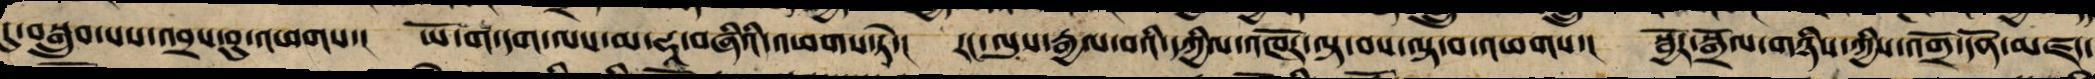དུ་བསྒྲུབ་པས་འབྲས་བུ་འཕགས་། ཡོ་ག་དག་ལས་མ་ཧཱ་བཞིའི་འཕགས་ཏེ་། རང་ལུས་རྒྱལ་བའི་དཀྱིལ་འཁོར་ལྟ་བས་ལྟ་བ་འཕགས་། སྦྱོར་སྒྲོལ་གཉིས་ཀྱིས་འགྲོ་དོན་མཛད་
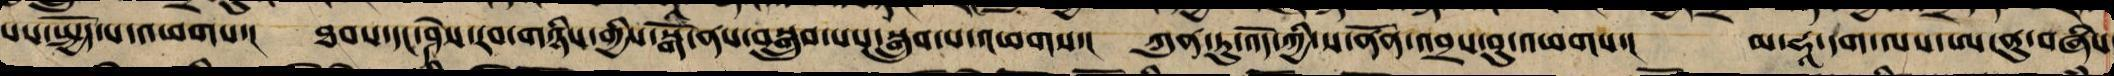པས་སྤྱོད་པ་འཕགས།་ ཐབས་དང་ཤེས་རབ་གཉིས་ཀྱི་སྒོ་ནས་བསྒྲུབ་པས་སྒྲུབ་པ་འཕགས་། ཀུན་ཏུ་འོད་ཀྱི་ས་ནོན་འབྲས་བུ་འཕགས་། མ་ཧཱ་དག་ལས་ཨ་ནུ་བཞིས
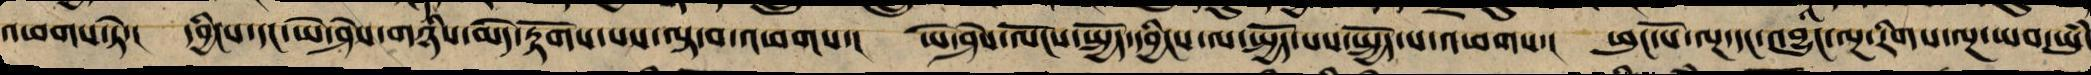འཕགས་ཏེ་། དབྱིངས་དང་ཡེ་ཤེས་གཉིས་མེད་རྟོགས་པས་ལྟ་བ་འཕགས་། ཡེ་ཤེས་ལོངས་སྤྱོད་དབྱིངས་ལ་སྤྱོད་པས་སྤྱོད་པ་འཕགས་། ཕུང་པོ་ལྔ་དང་འབྱུང་ལྔ་རིགས་ལྔ་ཡབ་ཡུཾ
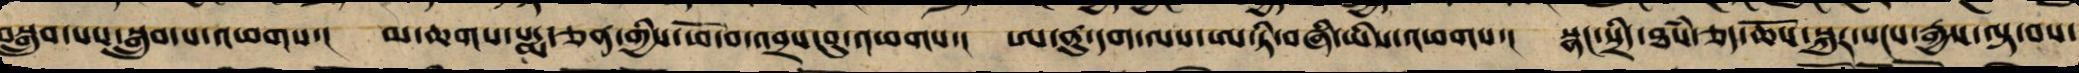བསྒྲུབ་པས་སྒྲུབ་པ་འཕགས་། མ་ཆགས་པདྨ་ཅན་གྱིས་ཕོ་བ་འབྲས་བུ་འཕགས་། ཨ་ནུ་དག་ལས་ཨ་ཏི་བཞི་ཡིས་འཕགས་ཏེ་། སྣང་སྲིད་ཐཾས་ཅད་ཆོས་སྐུར་སངས་རྒྱས་ལྟ་བས་
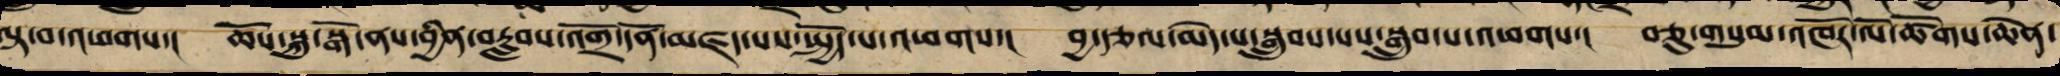ལྟ་བ་འཕགས་། ཆོས་སྐུ་སྒོ་ནས་བྱིན་བརླབས་འགྲོ་དོན་མཛད་པས་སྤྱོད་པ་འཕགས་། བྱ་རྩོལ་མེད་པར་བསྒྲུབ་པས་སྒྲུབ་པ་འཕགས་། བཅུ་གསུམ་འཁོར་ལོ་ཚོགས་ཆེན་
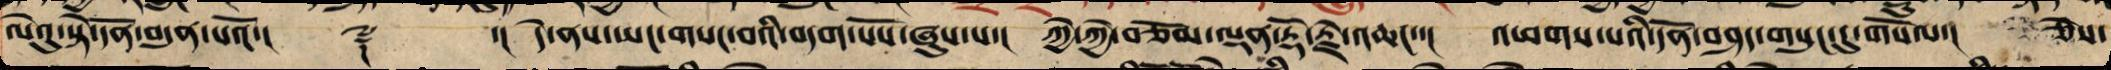ལེའུ་སྟེ་དོན་བདུན་པའོ་།། ༈ ་།། དེ་ནས་ཡང་གསང་བའི་བདག་པོས་ཞུས་པ་། ཀྱེ་ཀྱེ་བཅོམ་ལྡན་རྡོ་རྗེ་འཆང་་། འཕགས་པའི་དོན་བཤད་གསུང་དུ་གསོལ་། ཅེས་
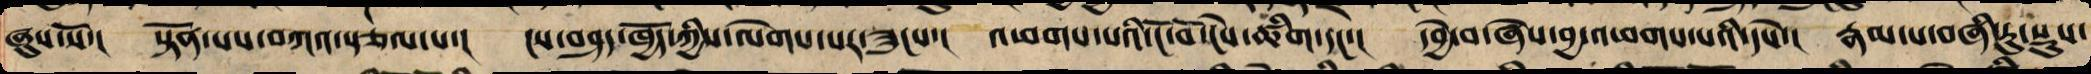ཞུས་སོ་། སྟོན་པས་བཀའ་སྩལ་པ་། ས་བཤད་ཁྱོད་ཀྱིས་ལེགས་པར་ཟུངས་། འཕགས་པའི་ངོ་བོ་ངེས་ཚིག་དང་། དབྱེ་བ་ཞེས་བྱ་འཕགས་པའི་དཔེ་། རྣམ་པ་བཞི་རུ་བསྡུས་
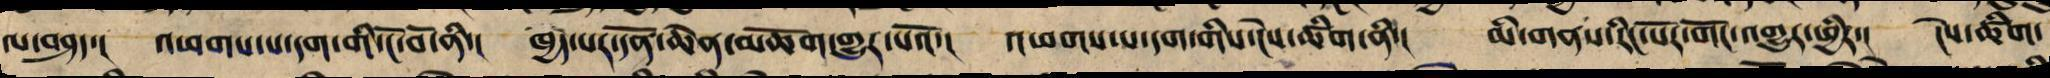ལ་བཤད་། འཕགས་པ་དག་གི་ངོ་བོ་ནི་། ཁྱད་པར་དོན་ཆེན་མཆོག་གྱུར་པའོ་། འཕགས་པ་དག་གི་ངེས་ཚིག་ནི་། མི་གནས་རིང་པོར་གང་གྱུར་ཕྱིར་། ངེས་ཚིག་
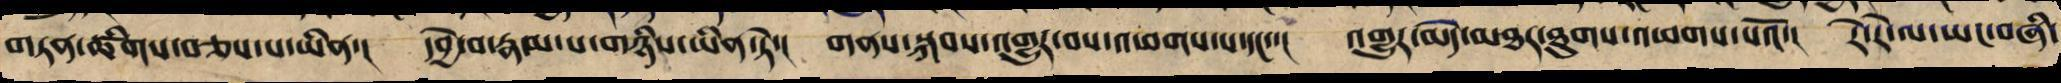གཏན་ཚིགས་བཅས་པ་ཡིན་། དབྱེ་བ་རྣམ་པ་གཉིས་ཡིན་ཏེ་། གནས་སྐབས་འགྱུར་བས་འཕགས་པ་དང་་། འགྱུར་མེད་མཐར་ཐུག་འཕགས་པའོ་། རེ་རེ་ལ་ཡང་བཞི་
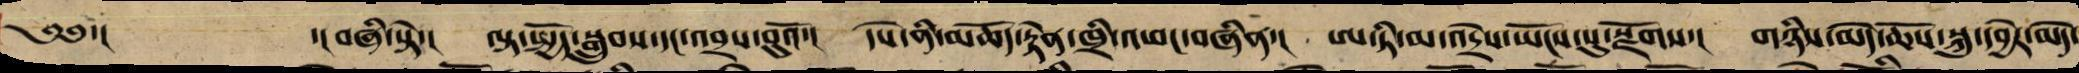༄༅་།  ་།བཞི་སྟེ་། ལྟ་སྤྱོད་སྒྲུབ་དང་འབྲས་བུའོ་། དཔེ་ནི་མཆོད་རྟེན་ཁྲི་འཕང་བཞིན་། ཨ་ཏི་མ་འདྲེས་ཡོངས་སུ་སྫོགས་། གཉིས་མེད་ཆོས་སྐུ་དབྱེར་མེད་
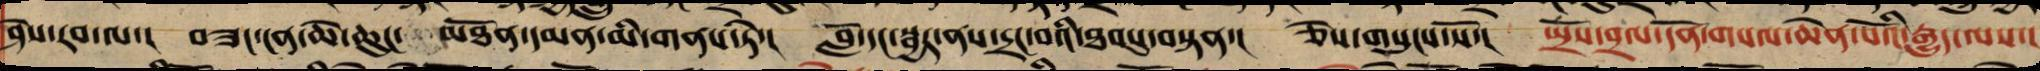ཤེས་རབ་ལ་། བཟང་ངན་ཆེ་ཆུང་མཐོ་དམན་མི་གནས་ཏེ་། བློ་དང་སྦྱར་ནས་དྲང་བའི་ཐབསུ་བསྟན་། ཅེས་གསུངས་སོ་། སྤྲོས་བྲལ་དོན་གསལ་ཆེན་པོའི་རྒྱུད་ལས་།
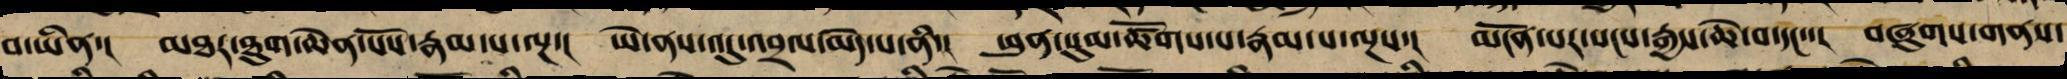བ་ཡིན་། མཐར་ཐུག་ཆེན་པོ་རྣམ་པ་ལྔ་། ཡེ་ནས་འདུ་འབྲལ་མེད་པ་ནི་། ཕུན་སུམ་ཚོགས་པ་རྣམ་པ་ལྔས་། མངོན་པར་སངས་རྒྱས་ཆེ་བ་དང་་། བཞུགས་གནས་
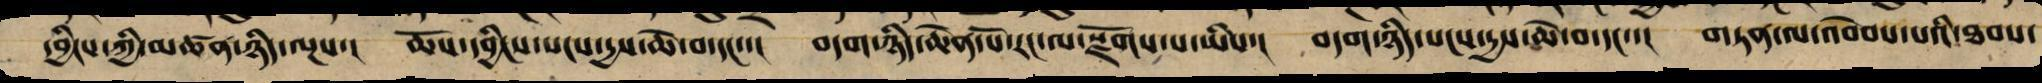དབྱིངས་ཀྱི་མཚན་ཉིད་ལྔས་། ཆོས་དབྱིངས་སངས་དྱས་ཆེ་བ་དང་་། བདག་ཉིད་ཆེན་པོ་རང་ལ་སྫོགས་པ་ཡིས་། བདག་ཉིད་སངས་དྱས་ཆེ་བ་དང་་། གཏན་ལ་འབེབས་པའི་ཐབས་
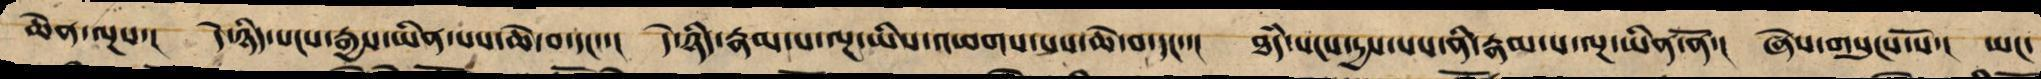ཆེན་ལྔས་། དེ་ཉིད་སངས་རྒྱས་ཡིན་པས་ཆེ་བ་དང་་། དེ་ཉིད་རྣམ་པ་ལྔ་ཡིས་འཕགས་པས་ཆེ་བ་དང་་། ཐཾད་སངས་དྱས་པས་ནི་ཆེ་བ་རྣམ་ལྔ་ཡིན་ནོ་། ཞེས་གསུངས་སོ་། ཡང་
